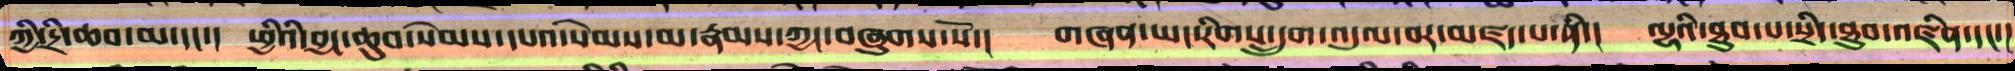ཀྱི་དྲི་ཆབ་མ་དང་། ཕྱིའི་བྱང་ཆུབ་སེམས་དཔའ་སེམས་མ་རྣམས་ཀྱང་བཞུགས་སོ་། གཞན་ཡང་རིགས་དྲུག་འདུལ་བར་མཛད་པ་ནི་། ལྷའི་ཐུབ་པ་སྲིད་ཐུབ་འཛིན་དང་།
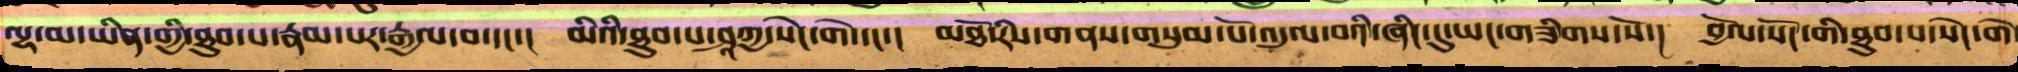ལྷ་མ་ཡིན་གྱི་ཐུབ་པ་རྣམ་པར་རྒྱལ་བ་དང་། མིའི་ཐུབ་པ་ཤཱཀྱ་སེང་གེ་དང་། མཐོ་རིས་གནས་གསུམ་པོ་འདུལ་བའི་ཞིང་དུ་ཡང་གཟིགས་སོ་། བྱོལ་སོང་གི་ཐུབ་པ་སེང་གེ་
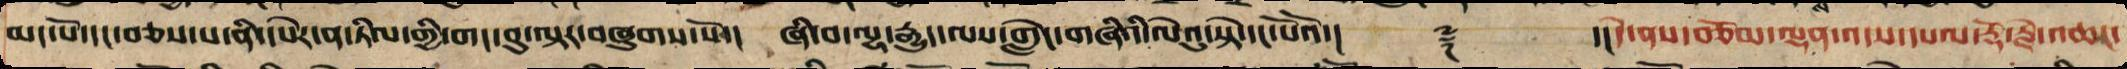མང་པོ་དང་བཅས་པ་ནི་དཔེར་ན་ཏིལ་གྱི་གང་བུ་ལྟར་བཞུགས་སོ་། ཞི་བ་ལྷ་རྒྱུད་ལས་གླེང་གཞིའི་ལེའུ་སྟེ་དང་པོའོ་།། ༈ ་།།དེ་ནས་བཅོམ་ལྡན་འདས་དཔལ་རྡོ་རྗེ་འཆང་
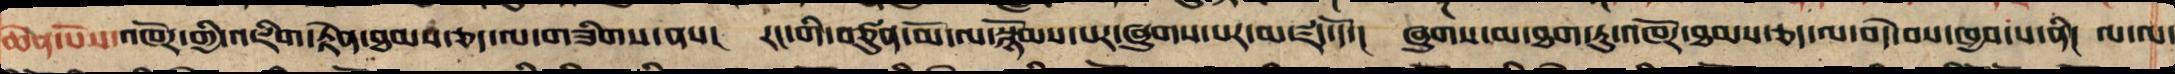ཆེན་པོས་འཁོར་གྱི་འཇིག་རྟེན་ཐམས་ཅད་ལ་གཟིགས་ནས། རང་གི་བཙུན་མོ་ལ་སྙོམས་པར་ཞུགས་པར་མཛད་དོ་། ཞུགས་མ་ཐག་ཏུ་འཁོར་ཐམས་ཅད་ལ་བདེ་བས་ཁྱབ་པ་ནི། ལ་ལ་
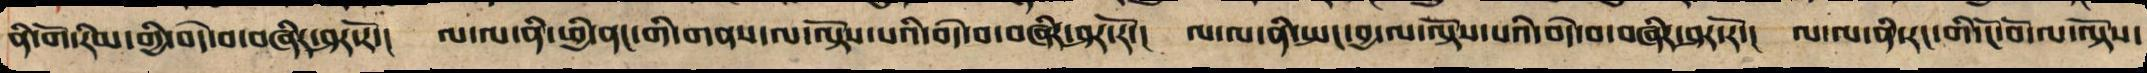ནི་གོ་རིམ་གྱི་བདེ་བ་བཞིར་ཤར་རོ་། ལ་ལ་ནི་ཕྱི་ནང་གི་གནས་ལ་ལྟོས་པའི་བདེ་བ་བཞིར་ཤར་རོ་། ལ་ལ་ནི་སྤང་བྱ་ལ་ལྟོས་པའི་བདེ་བ་བཞིར་ཤར་རོ་། ལ་ལ་ནི་རང་གི་ངོ་བོ་ལ་ལྟོས་
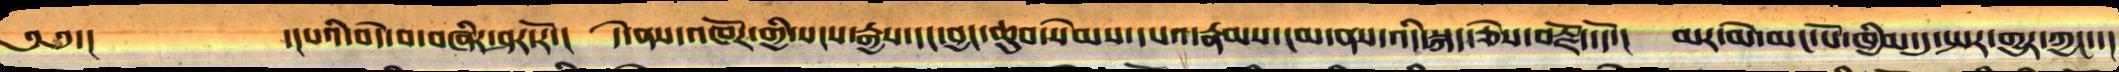༄༅་། ་།པའི་བདེ་བ་བཞིར་ཤར་རོ་། དེ་ནས་འཁོར་གྱི་སངས་རྒྱས་དང་བྱང་ཆུབ་སེམས་དཔའ་རྣམས་ངོམས་ནས་འདི་སྐད་ཅེས་བརྗོད་དོ་། མར་མེ་མང་པོ་ཁྱིམ་དུ་སྦར་གྱུར་ཀྱང་་།
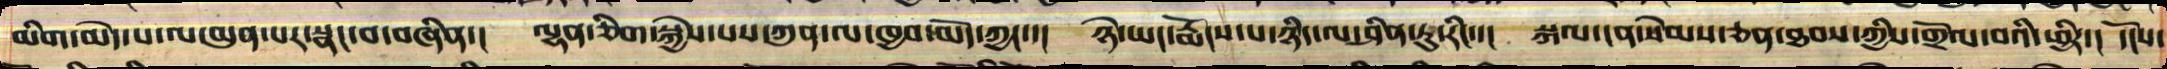མིག་མེད་པ་ལ་མུན་པར་སྣང་བ་བཞིན་། ལྷན་ཅིག་སྐྱེས་པས་ཀུན་ལ་ཁྱབ་མོད་ཀྱང་་། ཉེ་ཡང་རྨོངས་པ་ཉིད་ལ་ཤིན་ཏུ་རིང་་། སྐལ་ངན་སེམས་ཅན་ཐབས་ཀྱིས་གྲོལ་བའི་ཕྱིར་། དངོས་
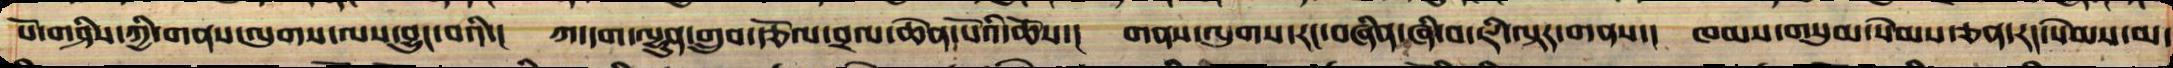པོ་གཤིས་ཀྱི་གནས་ལུགས་ལས་བྱུང་བའི་། ཀ་དག་ལྷུན་གྲུབ་རྩོལ་བྲལ་ཆེན་པོའི་ཆོས་། གནས་ལུགས་རང་བཞིན་ཞི་བ་ཇི་ལྟར་གནས་། ཁམས་གསུམ་སེམས་ཅན་རང་སེམས་མ་
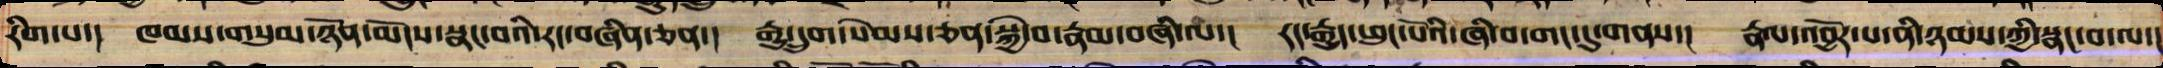རིག་པ་། ཁམས་གསུམ་ཉོན་མོངས་སྣང་བའི་རང་བཞིན་ཅན་། རྒྱུ་དྲུག་སེམས་ཅན་སྐྱེ་བ་རྣམ་བཞི་ལ་། རང་རྒྱུད་ཕུང་པོའི་ཞི་བ་གང་དུ་གནས་། རྣལ་འབྱོར་པ་ནི་ཉམས་ཀྱི་སྣང་བ་ལ་།
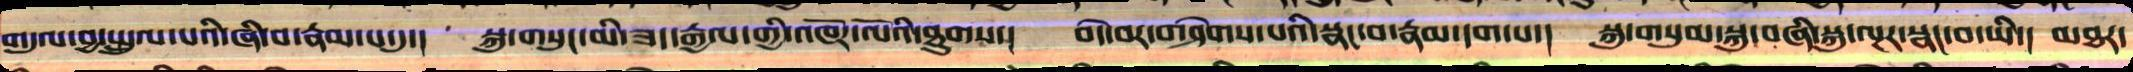གདུལ་བྱ་སྤྲུལ་པའི་ཞི་བ་རྣམ་པ་དུ་། སྐུ་གསུང་མི་ཟད་རྒྱན་གྱི་འཁོར་ལོའི་ཐུགས་། བདེ་བར་གཤེགས་པའི་སྣང་བ་རྣམ་དག་པ་། སྐུ་གསུམ་སྐུ་བཞི་སྐུ་ལྔར་སྣང་བ་ཡི་། མཐར་
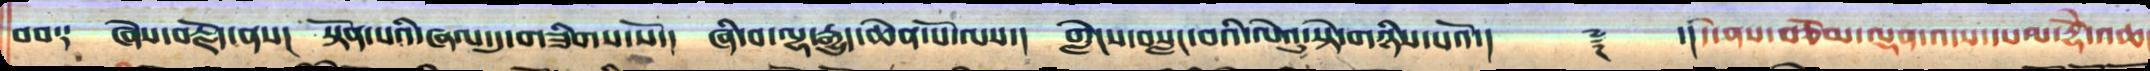བབ༑ ཅེས་བརྗོད་ནས། སྟོན་པའི་ཞལ་དུ་གཟིགས་སོ་། ཞི་བ་ལྷ་རྒྱུད་ཆེན་པོ་ལས་། གླེངས་བསླང་བའི་ལེའུ་སྟེ་གཉིས་པའོ་།། ༈ ་།།དེ་ནས་བཅོམ་ལྡན་འདས་དཔལ་རྡོེ་འཆང་
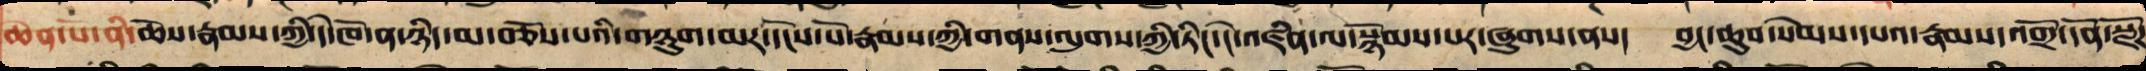ཆེན་པོ་ནི་ཆོས་ཐམས་ཅད་ཀྱི་དེ་ཁོ་ན་ཉིད་མ་བཅོས་པའི་གཉུག་མ་དངོས་པོ་རྣམས་ཀྱི་གནས་ལུགས་ཀྱི་ཏིང་ངེ་འཛིན་ལ་སྙོམས་པར་ཞུགས་ནས། བྱང་ཆུབ་སེམས་དཔའ་རྣམས་འགྲོ་དོན་སྫོཌ
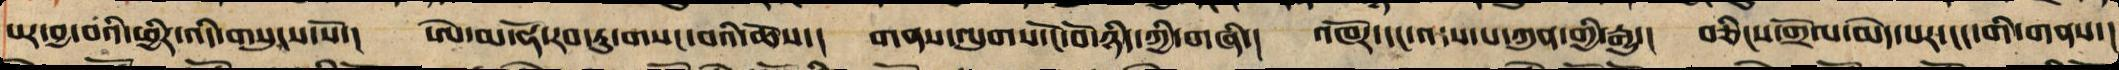པར་བྱ་བའི་ཕྱིར་འདི་གསུངས་སོ་། ཨེ་མ་ཧོ་རབ་ཏུ་གསང་བའི་ཆོས་། གནས་ལུགས་ངོ་བོ་ཉིད་ཀྱི་གཞི་། འཁོར་དང་འདས་པ་ཀུན་གྱི་རྒྱུ་། བཅིང་གྲོལ་མེད་པར་ངང་གིས་གནས་།
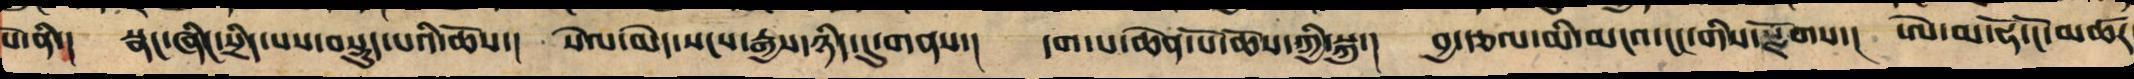པོ་ནི་། སྣང་ཞིང་སྲིད་པས་བསྡུས་པའི་ཆོས་། སེལ་མེད་སངས་རྒྱས་ཉིད་དུ་གནས་། དག་པ་ཆེན་པོ་ཆོས་ཀྱི་སྐུ་། བྱ་རྩོལ་མི་མངའ་ངང་གིས་སྫོགས་། ཨེ་མ་ཧོ་ངོ་མཚར་
